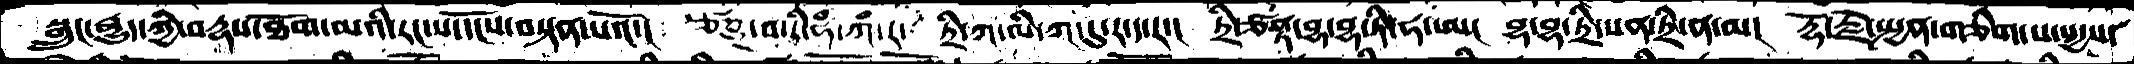སྒྲུང་རྒྱུད་ཀྱི་བརྡས་ཐོག་མའི་རང་ས་དངོས་བསྟན་པའོ་།  ཙཎྜ་བ་ཏི་ཧཾ་ཀཾ་ར་ ཏྲི་ཀ་ལི་ཀ་དུ་ར་ད་རད།  ཏྲི་ཙནྟ་བྷ་བྷ་་ཏི་ཧ་ཨ། བྷ་བྷ་ཏྲི་སན་ཏྲི་ན་མ།  རྡོ་རྗེ་སྤྱན་གཅིག་པ་སདྱས་
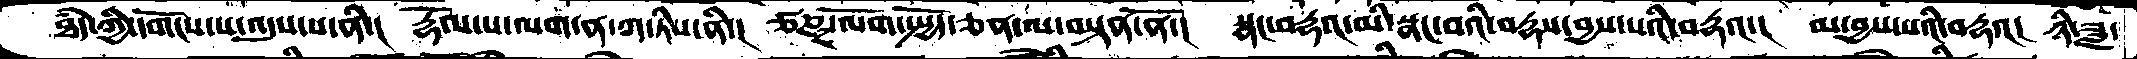ཐཾད་ཀྱི་དགོངས་པ་འདུས་པ་ནི་།  རྡོལ་པ་ལག་ན་ཀ་ཏིས་ནི་།  ཙཎྜ་ལོག་སྤྱོད་ཅན་ལ་བསྟན་ནོ་།  སྣང་བརྡའ་མི་སྣང་བའི་བརྡས་བྱས་པའི་བརྡའ་།  མ་བྱས་པའི་བརྡའ།  ཉི་ཟླ་
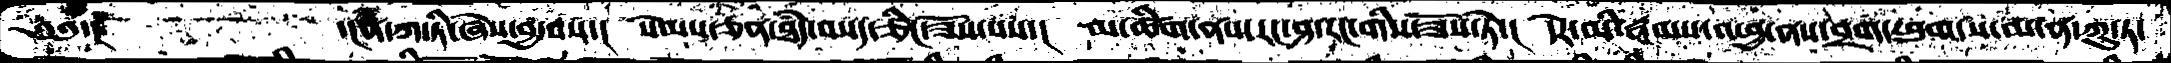༄༅་།        ་།ན་ཀ་ཏི་ཞེས་བྱ་བས་།   སེམས་ཅན་ཐཾད་བསད་ཅིང་ཟོས་པས་།  མ་ཚིག་ནས་རང་ཤ་རང་གིས་ཟོས་ཏེ་།  དེར་མི་རྣམས་འཕྱ་ནས་བྲག་ཕུག་ས་མ་ན་ཀུ་ཏ་
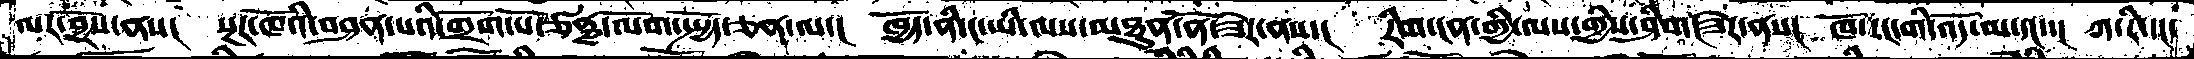ལར་བྱོས་ནས།  སྔར་ཁོའི་བཤན་པའི་གྲོག་པོ་ཙནྞ་ལོག་སྤྱོད་ཅན་ལ་།  ཁྱོད་ནི་ང་ཡི་ལས་མཐུན་ནོ་ཟེར་ནས་།  རིག་ངན་གྱི་ལས་གྱིས་ཤིག་ཟེར་ནས།  ཁོ་རང་གི་འོད་མ་དང་་།  ཀ་རི་དང་
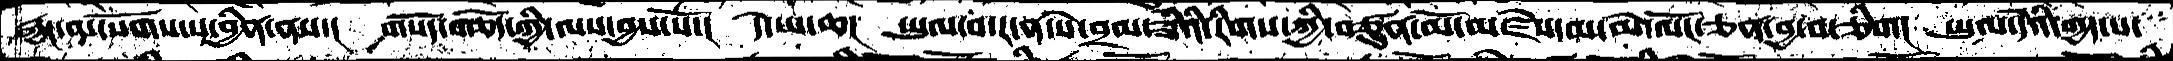རྐྱང་ན་སོགས་པ་བྱིན་ནས་།  གསོད་གཅོད་ཀྱི་ལས་བྱས་སོ་།   དེ་ཡ་ཆ།  ཡུལ་བ་ར་ན་སེ་བྲམ་ཟིའི་རིགས་ཀྱི་བཙུན་མོ་མཛེས་མ་མེ་ལོང་ཅན་བྱ་བ་ཅིག།  ཡུལ་དེའི་གྱད་པ་
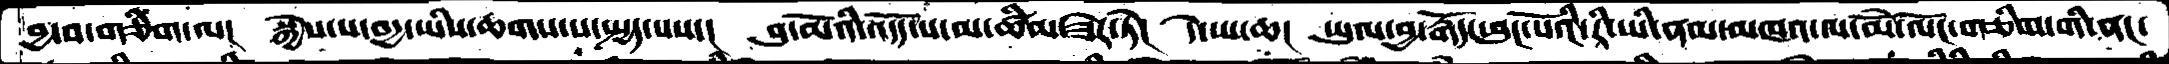བྱ་བ་གཅིག་ལ།  སྐྱེས་པ་བདྱ་ཡིས་ཆགས་པ་སྤྱད་པས་།  བུ་མོའི་འདོད་པ་མ་ཚིམ་ཟེར་ཏེ།  དེ་ཡ་ཆ།  ཡུལ་བྱ་རྒོད་ཕུང་པོའི་རི་ཡི་ནམ་མཁའ་ལ་མོེ་ལོང་གཅིག་གི་ནང་
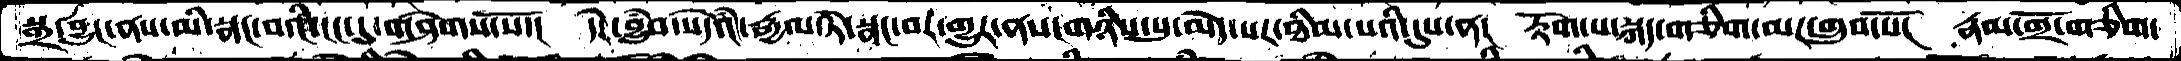སྒྲ་བྱུང་ནས་མི་སྣང་བའི་ངང་དུ་གཤེགས་སོ་།  དེར་བྱུཾབ་སེདཾའ་རྒྱལ་ཏེ་སྣང་བར་གྱུར་ནས་གཉིས་སུ་མེད་པར་ཐིམ་པའི་དུས་ན།  རྟོག་པ་སྐད་གཅིག་མར་གྲུབ་པོ།  རྣམ་གྲོ་གཅིག་
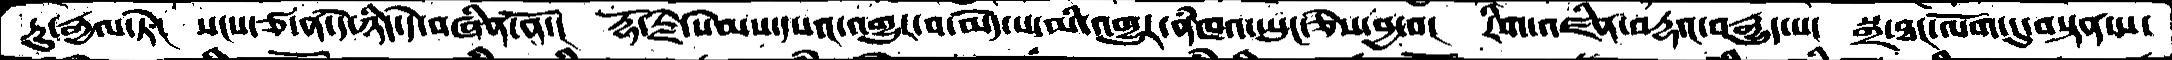ཏུ་རྒྱལ་ཏེ།   སངས་ཙ་ན་དེ་ཉིད་དེ་བཞིན་ནོ་།  རྡོ་རྗེ་སེམས་དཔའ་འགྱུར་བ་མེད་པ་མི་འགྱུར་ནཾཁའ་ཡུང་ཅེས་བྱ་བ།  རིག་འཛིན་བརྡའ་བརྒྱུད་པ།  སྒྲ་ཐང་ལོག་དུ་བསྟན་པ་
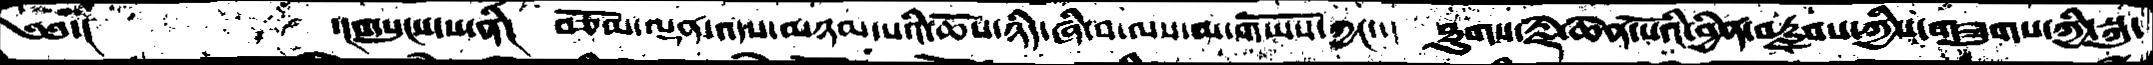༄༅་།     ་།གསུངས་པ་ནི།  བཅོམ་ལྡན་འདས་མཉམ་པའི་ཆོས་ཉིད་ཞི་བ་ལས་མ་གཡོས་ཀྱང་་།  ཐུགས་རྗེ་ཆེན་པོའི་བྱིན་བརླབས་ཀྱིས་གཟུགས་ཀྱི་སྐུ་
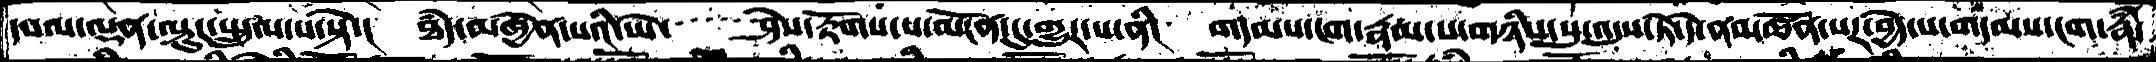དཔལ་ལྡན་ལྟུར་སྤྲུལ་པ་སྟེ་།  ཐཾད་མཁྱེན་པའི་ཡེ་   ཤེས་རྟོགས་པ་མངོན་དུ་གྱུར་པ་ནི།  གདམས་ངག་རྣམ་པ་གཉིས་སུ་འདུས་ཏེ་དེ་ནས་ཚོན་པར་བྱེད་པ་གདམས་ངག་རྣཾ་
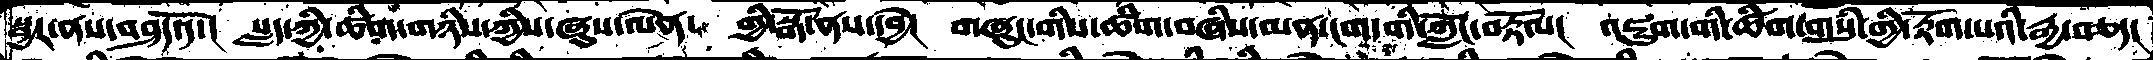སྦྱར་ནས་བཤད་དོ་།  སླད་ཀྱི་ཚིག་གཉིས་ཀྱིས་ཞུས་ལེན་  གྱི་སྒོ་ནས་དབྱེ།  གཞུང་གིས་ཚིག་བཞིས་མན་ངག་གི་ཀློང་བརྟོལ།  འཇུག་གི་ཚིག་གསུཾ་གྱི་རྟོག་པའི་རྒྱ་བཅད།
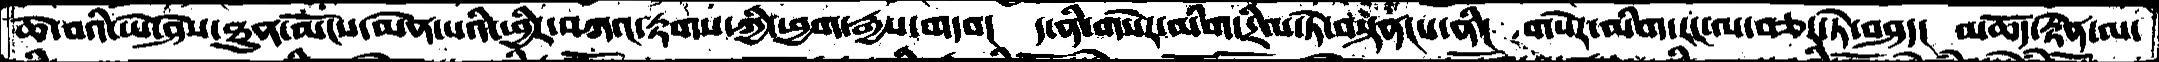ཆེ་བའི་ཡེ་ཤེས་ཐུན་མོངས་མེན་པའི་ཕྱིར་བཀའ་རྟགས་ཀྱི་ཕྱག་རྒྱས་གདབ།   ད་ནི་གསེར་མིག་དྲིལ་ཏེ་བསྟན།ས་ནི།   གསེར་མིག་རང་ལ་བཅར་ཏེ་བཤད།  མཆོད་རྟེན་ལ་
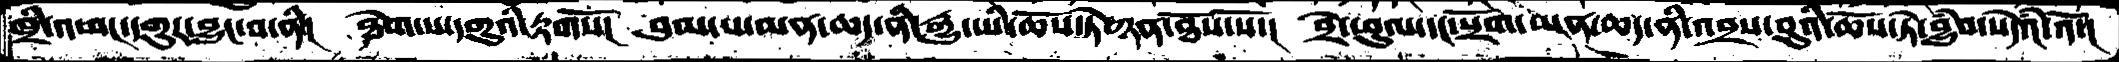ཁྲི་འཕང་དགུར་བྱུང་བ་ནི།  ཐེག་པ་དགུའི་རྟགོས།  བུམ་པ་མན་ཆད་ནི་རྒྱུ་ཡི་ཆོས་ཏེ་ཉན་ཐོས་སོ་།  བྲེ་ཕུལ་དང་སྲོག་མན་ཆད་ནི་འབྲས་བུའི་ཆོས་ཏེ་བྱུཾབ་སེདའཾ་འོ་།
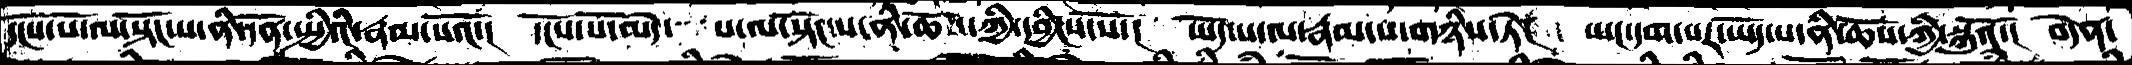དངོས་པོ་ལ་སྟོང་པ་ནི་དོན་སྤྱིའི་རྣམ་པའོ་།  དངོས་པོ་མེད་    པ་ལ་སྟོང་པ་ནི་ཆོས་ཀྱི་དབྱིངས་སོ་།  ཡོད་པ་ལ་རྣམ་པ་གཉིས་ཏེ་།  ཡང་དག་པར་ཡོད་པ་ནི་ཆོས་ཀྱི་སྐུའོ་།  བདེན་
